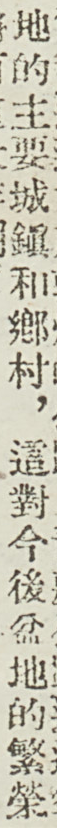地的主要城鎮和鄉村，這對今後盆地的繁榮
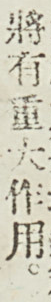將有重大作用。
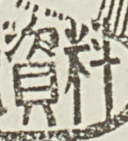資料
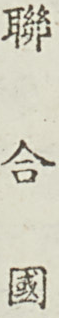聯 合 國
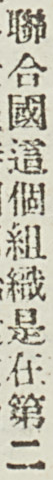聯合國這個組織是在第二
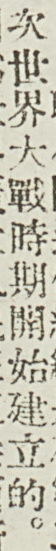次世界大戰時期開始建立的。
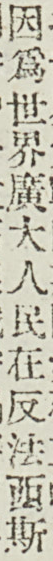因爲世界廣大人民在反法西斯
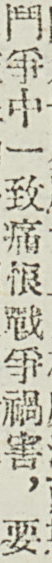鬥爭中一致痛恨戰爭禍害，要
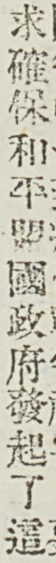求確保和平盟國政府發起了這
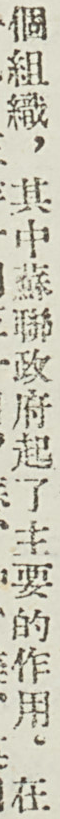個組織，其中蘇聯政府起了主要的作用。在
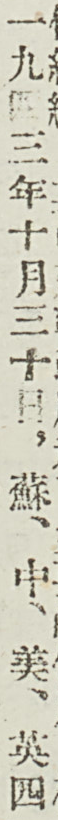以九四三年十月三十日，蘇、中、美、英四
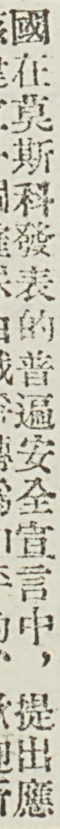國在莫斯科發表的普遍安全宣言中，提出應
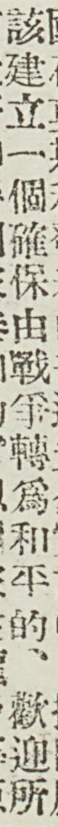該建立一個確保由戰爭轉爲和平的、歡迎所
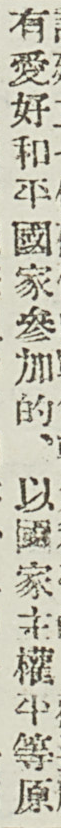有愛好和平國家參加的、以國家主權平等原
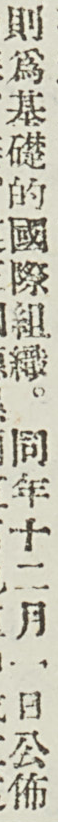則爲基礎的國際組織。同年十二月一日公佈
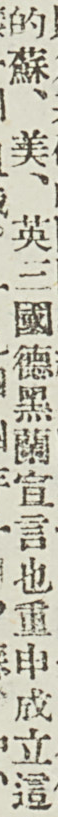的蘇、美、英三國德黑蘭宣言也重申成立這
